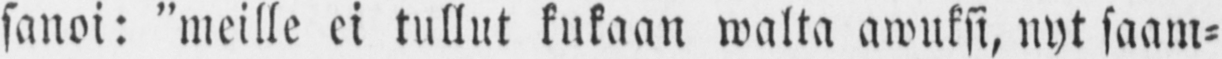sanoi: "meille ei tullut kukaan walta awuksi, nyt saam-
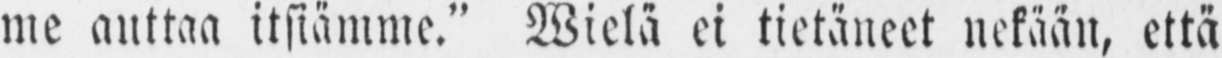me auttaa itsiämme." Wielä ei tietäneet nekään, että
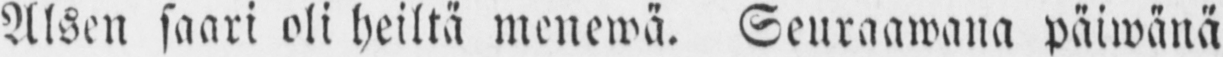Alsen saari oli heiltä menewä. Seuraawana päiwänä
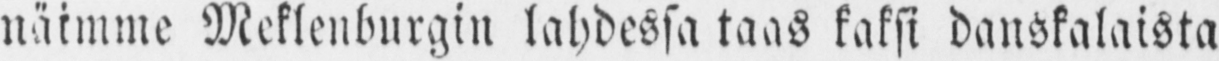näimme Meklenburgin lahdessa taas kaksi danskalaista
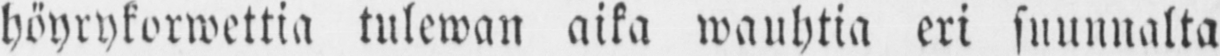höyrykorwettia tulewan aika wauhtia eri suunnalta
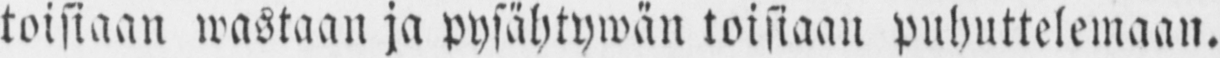toisiaan wastaan ja pysähtywän toisiaan puhuttelemaan.
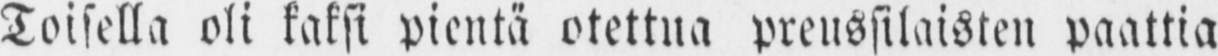Toisella oli kaksi pientä otettua preussilaisten paattia
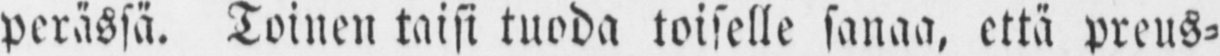perässä. Toinen taisi tuoda toiselle sanaa, että preus-
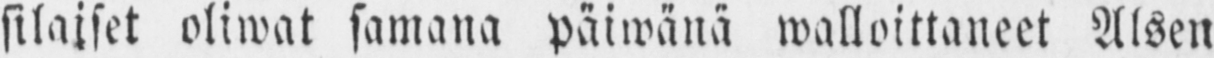silaiset oliwat samana päiwänä walloittaneet Alsen
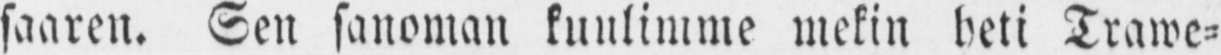saaren. Sen sanoman kuulimme mekin heti Trawe-
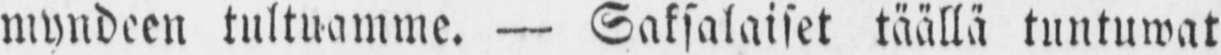myndeen tultuamme. — Saksalaiset täällä tuntuwat
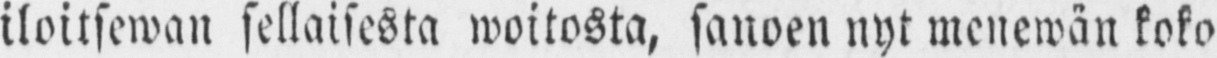iloitsewan sellaisesta woitosta, sanoen nyt menewän koko
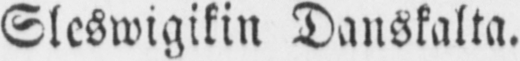Sleswigikin Danskalta.
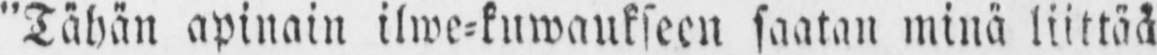"Tähän apinain ilwe-kuwaukseen saatan minä liittää
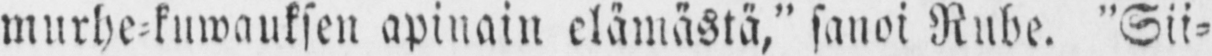murhe-kuwauksen apinain elämästä," sanoi Rube. "Sii-
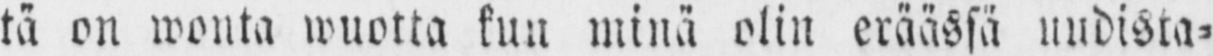tä on monta wuotta kun minä olin eräässä uudista-
